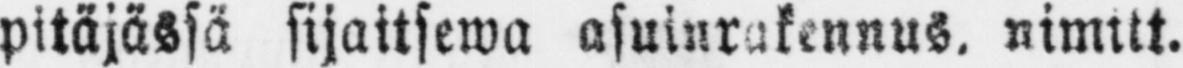pitäjässä sijaitsewa asuinrakennus, nimitt.
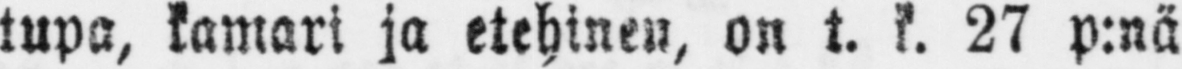tupa, kamari ja etehinen, on t. k. 27 p:nä
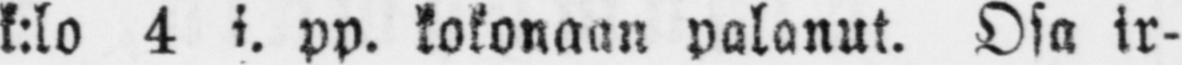k:lo 4 i. pp. kokonaan palanut. Osa ir-
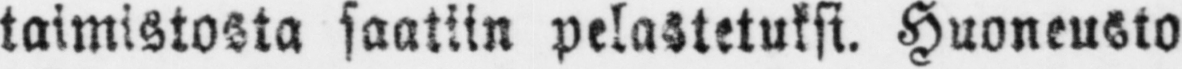taimistosta saatiin pelastetuksi. Huoneusto
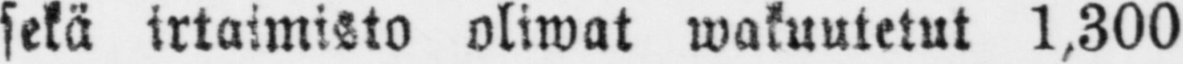sekä irtaimisto oliwat wakuutetut 1,300
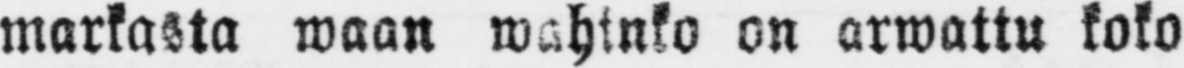markasta waan wahtnko on arwattu koko
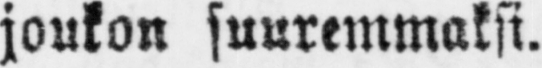joukon suuremmaksi.
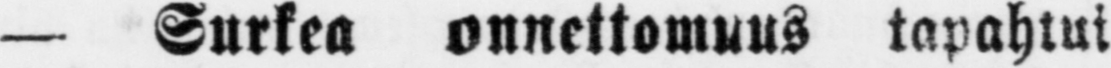— Surkea onnettomuus tapahtui
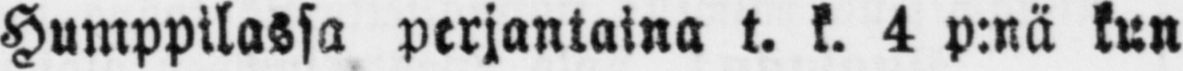Humppilassa perjantaina t. k. 4 p:nä kun
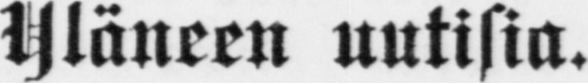Yläneen uutisia.
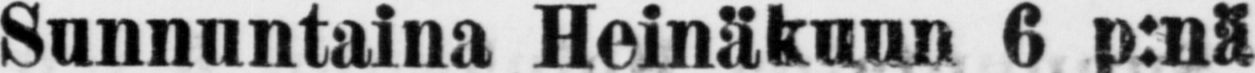Sannuntaina Hainäkuun 6 p:nä
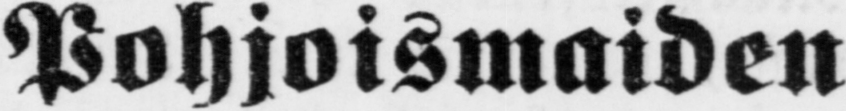Pohjoismaiden
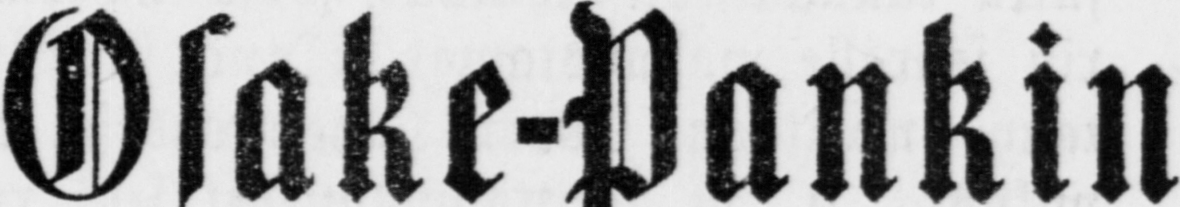Osake-Pankin
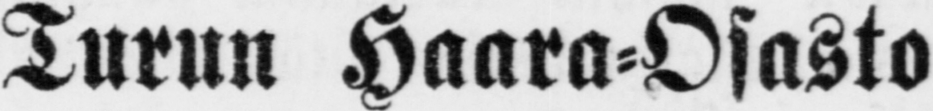Turun Haara-Osasto
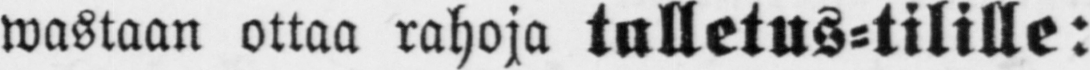wastaan ottaa rahoja talletus-tilille:
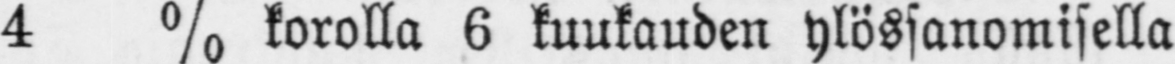4 % korolla 6 kuukauden ylössanomisella
